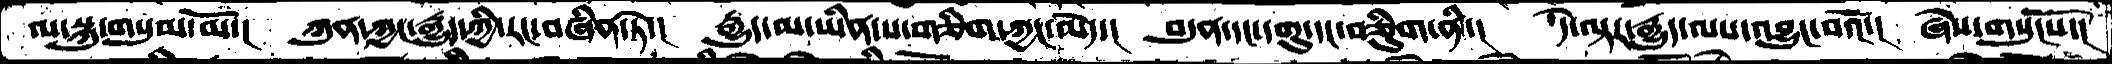ལ་སྐུ་གསུམ་མོ་། ཀུན་ཀྱང་རྒྱུད་ཀྱི་རང་བཞིན་ཏེ་།  རྒྱུད་མ་ཡིན་པ་གཅིག་ཀྱང་མེད་།  བདུན་དང་དགུ་དང་བཅིུག་ནི་།  དེ་ལྟར་རྒྱུད་ལས་འབྱུང་བའོ་།  ཞེས་གསུངསོ་།
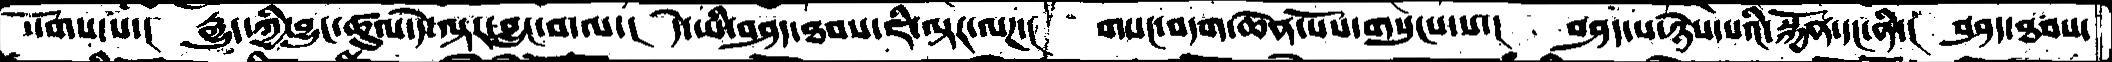སོགས་པ་།  རྒྱུད་ཀྱི་བྱུང་ཚུལ་དེ་ལྟར་བྱུང་བ་ལ་།  དེ་ཡི་བཤད་ཐབས་ཇི་ལྟར་ལཌ་།  གསང་བདག་ཆེན་པོས་གསུངས་པ་། བཤད་པ་ཉེས་པའི་སྐྱོན་དང་ནི་།  བཤད་ཐབས་
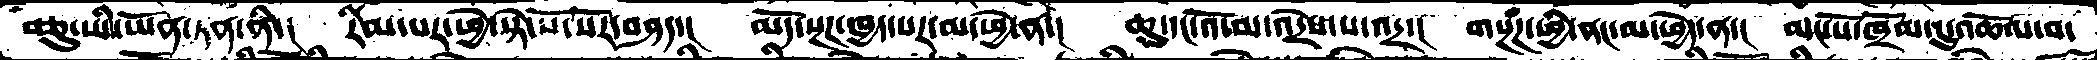བཅུ་ཡི་ཡོན་ཏན་ནི་།  རིམ་པར་ཕྱེ་སྟེ་སོ་སོར་བཤད་།  མདོ་སྔཌ་ཁྱད་པར་མ་ཕྱེ་ན་།  ཆུ་དང་འོ་མ་འདྲེས་པ་འདྲ་།  གསྔཾཌ་ཕྱི་ནང་མ་ཕྱེད་ན་།  མང་པོ་ཁྲོམ་དུ་འཆོལ་བ་
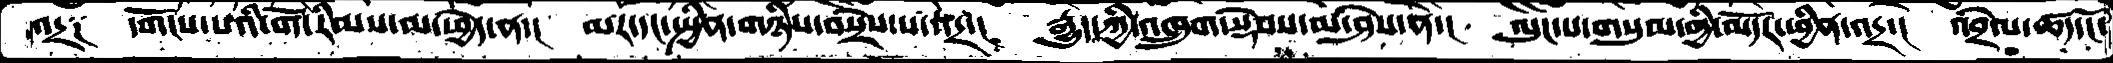འདྲ༑  དགོངས་པའི་གོ་རིམས་མ་ཕྱེད་ན་།  མར་དང་སྤྱིན་གཉིས་བསྲེས་པ་འདྲ་།  རྒྱུད་ཀྱི་འཁྲུག་སྡེབས་མ་ཤེས་ན་།  ལུང་པ་གསུམ་གྱི་མདོར་ཕྱིན་འདྲ་།  འབྲེལ་ཚད་ངོ་
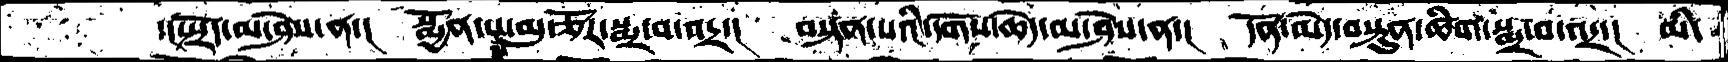་།སྤྲོད་མ་ཤེས་ན་།  སྨྱོན་པ་མུ་ཅོར་་སྨྲ་བ་འདྲ་།  བསྟན་པའི་དགོས་ཆེད་མ་ཤེས་ན་།  དོན་མེད་བསྟུན་ཚིག་སྨྲ་བ་འདྲ་།  མི་
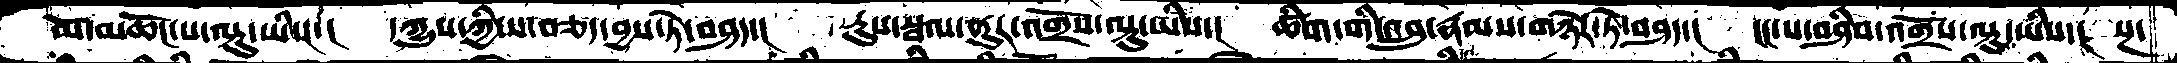མོ་མཆོང་པ་ལྟུ་ཡིས་།   དཀྱུས་ཀྱི་ས་བཅད་བྱས་ཏེ་བཤད་།    རུས་སྦལ་ནུར་འགྲོས་ལྟུ་ཡིས་།   ཚིག་གི་འབྲུ་རྣམས་གཉེར་ཏེ་བཤད་།   ངང་པ་བཤིབ་འགྲོས་ལྟུ་ཡིས་།  སྔ་
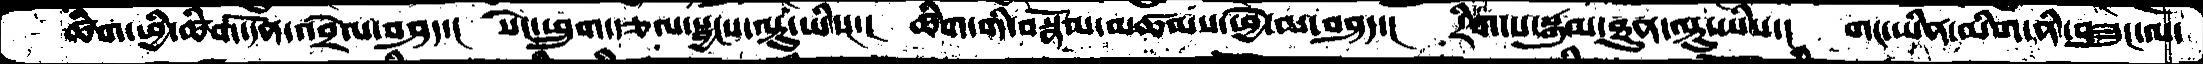ཚིག་ཕྱི་ཚིག་དོན་འབྲེལ་བཤད་།   སེང་ཕྲུག་རྩལ་སྦྱངས་ལྟུ་ཡིས་།   ཚིག་གི་བསྣོལ་མཚམས་ཕྱེ་མ་བཤད་།   རིག་པ་སྒུམ་ཐུན་ལྟུ་ཡིས་།   གང་ཡིན་མིག་ནི་བཟུང་ལ་
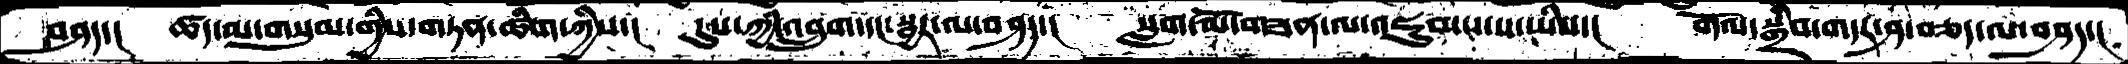བཤད་།   ཚད་མ་གསུམ་གྱིས་གཏན་ཚིག་ཀྱིས་།   དུས་ཀྱི་འབྲུག་དང་སྦྱར་ལ་བཤད་།   སླག་མོ་གཟན་ལ་འཇུམས་ས་ཡིས་།    གོལ་སྒྲིབ་གདར་ཤ་བཅད་ལ་བཤད་།
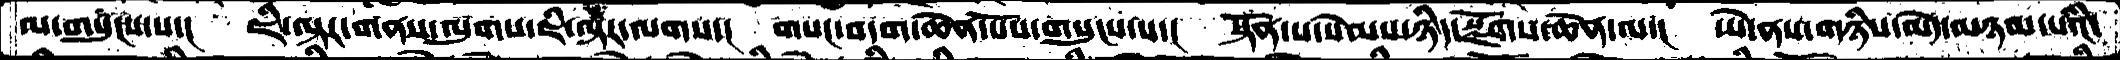ལ་གསུངས་པ་།  ཇི་ལྟར་གནས་ལུགས་ཇི་ལྟར་ལགས་།  གསང་བདག་ཆེན་པོས་གསུངས་པ་།  སྟོན་པ་སེམས་ཉིད་སྫོགས་ཆེན་ལ་།  ཡེ་ནས་གཉིས་མེད་མཉམ་པའི་
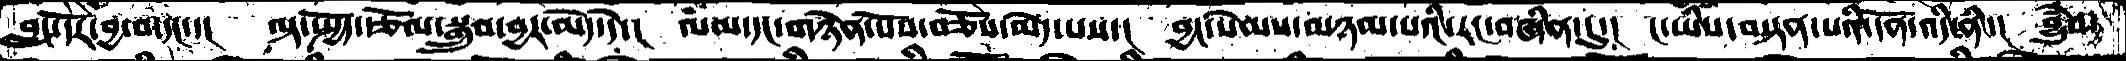བླང་དོར་བྱ་བ་དང་་།  ལྟ་སྤྱོད་རྩོལ་སྒྲུབ་བྱར་མེད་དེ་།  ལམ་དང་གཉེན་པོས་བཅོས་མེད་པས་།  བྱང་སེམས་མཉམ་པའི་རང་བཞིན་དུ་།  ང་ཡིས་བསྟན་པའི་དོན་འདི་ནི་།  བྱུཾབ་
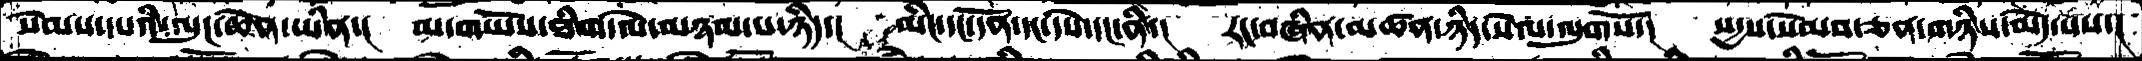སེམས་དཔའི་ལུང་ཆེན་ཡིན་།  མ་གཡོས་ཐིག་ལེ་མཉམ་པ་ཉིད་།  མིང་དང་དོན་དང་དཔེ་དང་ནི་།  རང་བཞིན་མཚན་ཉིད་སེལ་ལུགསོ་།  སདྱས་སེམས་ཅན་གཉིས་མེད་པས་།
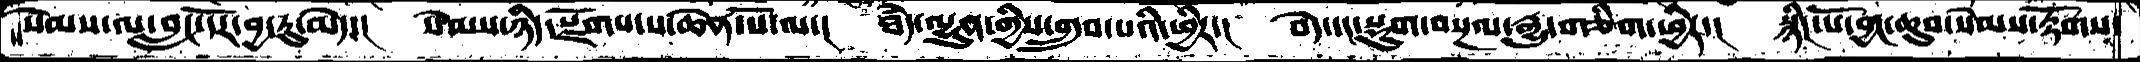སེམས་ལ་བླང་དོར་བྱ་རུ་མེད་།  སེམས་ཉིད་སྫོགས་པ་ཆེན་པོ་ལ་།  ཐཾད་ལྷུན་གྱིས་གྲུབ་པའི་ཕྱིར་།  བདེ་དང་སྡུག་བསྔལ་རྒྱུ་གཅིག་ཕྱིར་།  སྙིང་པོ་བྱང་ཆུབ་སེམས་རྟོགས་
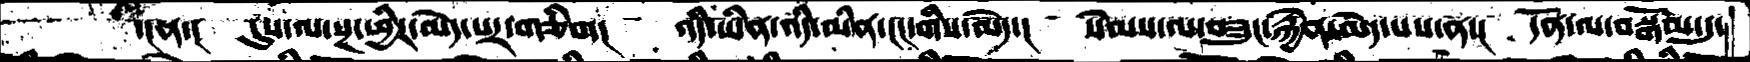་།ན་།   དུས་ལ་སྔ་ཕྱིར་མེད་པར་གཅིག།  འདི་ཡིན་འདི་མིན་ངང་གིས་མེད་།  སེམས་ལ་བཟུང་རྐྱེན་མེད་པས་ན་།  དོན་ལ་བསྒོམ་དུ་
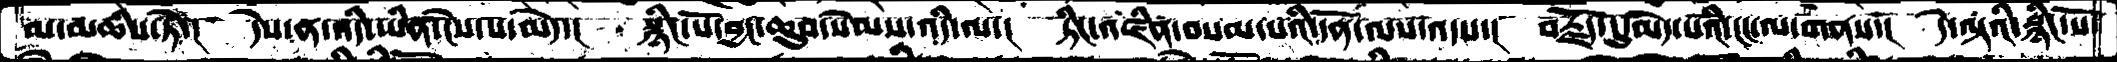མ་མཆིས་ཏེ་།   དེས་ན་འདི་ཡིན་ངེས་པ་མེད་།  སྙིང་པོ་བྱང་ཆུབ་སེམས་འདི་ལ་།  ཏིང་འཛིན་བསམ་པའི་དོན་ལས་འདས་།  བརྗོད་དུ་མེད་པའི་ངང་ལ་གནས་།  དེ་ལྟའི་སྙིང་པོ་
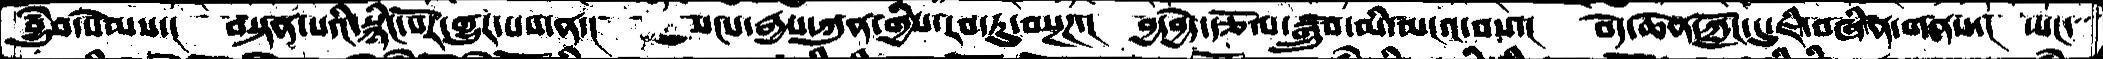བྱུཾབ་སེམས་།  བསྟན་པའི་སྙིང་པོར་གྱུར་པས་ན་།  སངས་རྒྱས་ཀུན་གྱིས་རབ་ཏུ་བསྔཌ་།  བྱ་བྱེད་རྩོལ་སྒྲུབ་མི་མངའ་བས་།  བདེ་ཆེན་ཀློང་དུ་ཇི་བཞིན་གནས་།  ཡང་
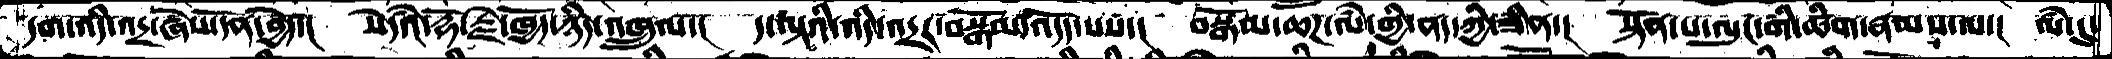དག་འདི་འདྲ་ཞེས་དོན་བྱེད་།  སེདཾའ་རྡོ་རྗེ་ཁྱོད་ཉིད་འཁྲུལ་།  ད་ལྟའི་འདི་འདྲར་བསྒོམ་འདོད་པས་།  བསྒོམ་ཆཌ་ལཾ་གྱི་ནད་ཀྱི་ཟིན་།  སྟོན་པ་ལུང་གི་ཚིག་རྣམས་ལ་།  ལཾ་དུ་
